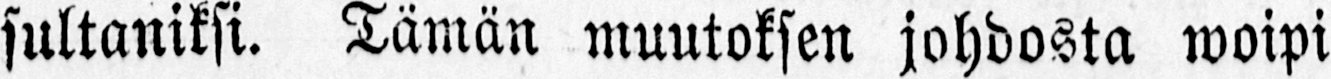sultaniksi. Tämän muutoksen johdosta woipi
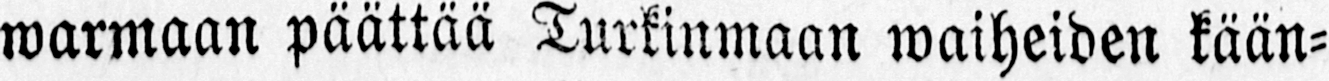warmaan päättää Turkinmaan waiheiden kään-
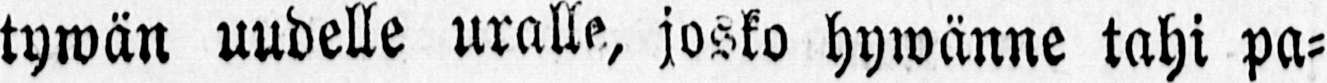tywän uudelle uralle, josko hywänne tahi pa-
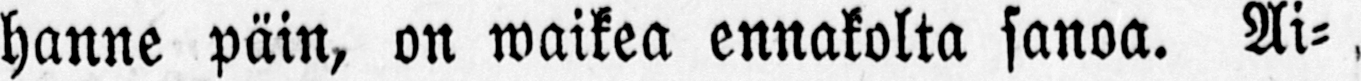hanne päin, on waikea ennakolta sanoa. Ai-.
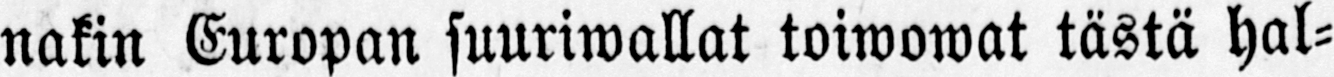nakin Europan suuriwallat toiwowat tästä hal-
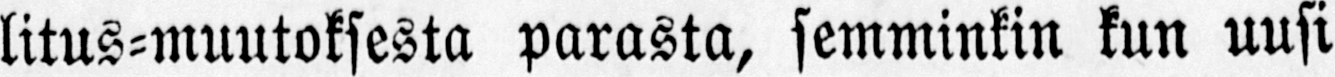litus-muutoksesta parasta, semminkin kun uusi
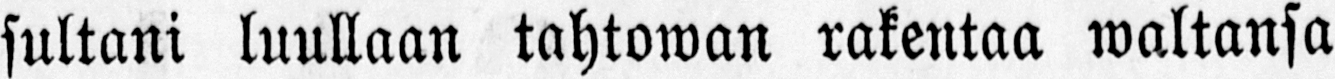sultani luullaan tahtowan rakentaa waltansa
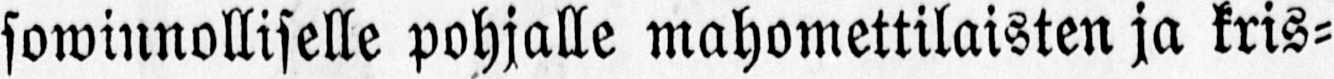sowinnolliselle pohjalle mahomettilaisten ja kris-
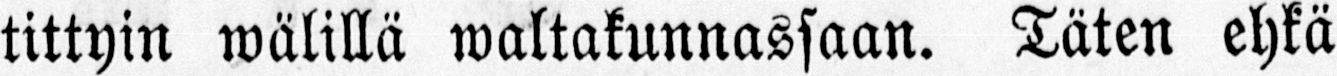tityin wälillä waltakunnassaan. Täten ehkä
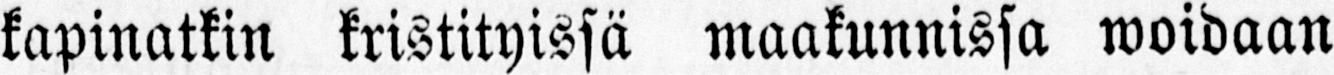kapinatkin kristityissä maakunnissa woidaan
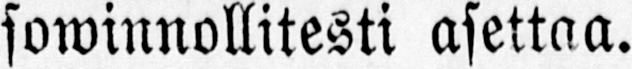sowinnollitesti asettaa.
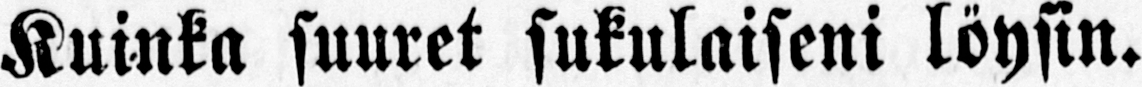Kuinka suuret sukulaiseni löysin.
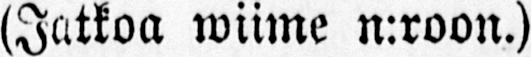(Jatkoa wiime n:roon.)
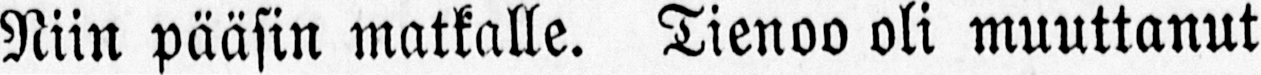Niin pääsin matkalle. Tienoo oli muuttanut
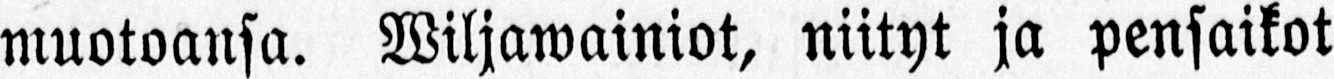muotoansa. Wiljawainiot, niityt ja pensaikot
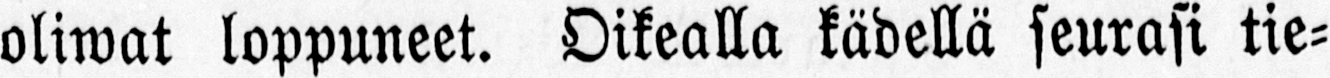oliwat loppuneet. Oikealla kädellä seurasi tie-
